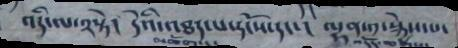འདི་ལ་༢སྟེ།  དེའི་འཐད་པ་དངོས་དང་།   ལྷན་༡་སྐྱེས་པ་
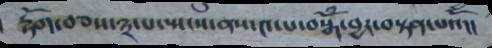རྟོག་བཅས་༣་པ་སྤངས་ནས་༤་པ་བསྒོཾ་བྱར་བསྟན་པའོ།།
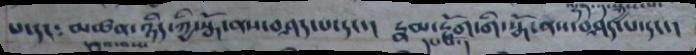པ་དང༴   མཚན་ཉིད་ཀྱི་སྒོ་ནས་བཤད་པ་དང་།  རྣམ་རྟོག་གི་སྒོ་ནས་བཤད་པ་དང་།
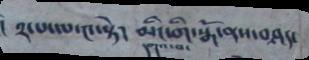།  ༢་པ་ལ་༤་སྟེ།   མིང་གི་སྒོ་ནས་བཤད་
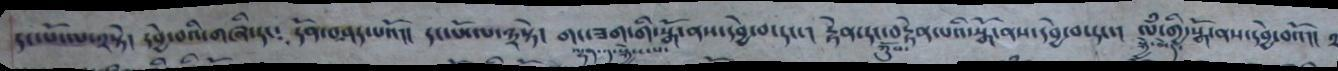དང་པོ་ལ་༢སྟེ། དབྱེ་བའི་གཞི་དང༴  དོན་བཤད་པའོ།།  དང་པོ་ལ་༣སྟེ།  གང་ཟག་གི་སྒོ་ནས་དབྱེ་བ་དང་།  རྟེན་དང་བརྟེན་པའི་སྒོ་ནས་དབྱེ་བ་དང་།  ལཾ་གྱི་སྒོ་ནས་དབྱེ་བའོ།།
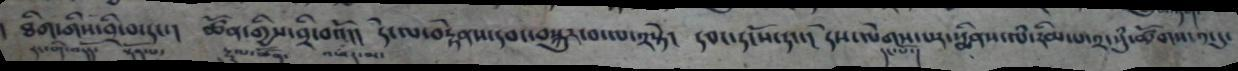ཐིག་གིས་བྲི་བ་དང་།  ཚོན་གྱིས་བྲི་བའོ།།   དེ་ལ་བརྟེནས་དབང་བསྐར་བ་ལ་༢སྟེ།   དབང་དངོས་དང་།   དེས་ལེགས་པར་སྨིནས་ལཾ་རིམ་པ་༢་སུཾ་ཚོགས་༡་དུ་
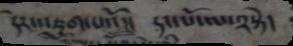དེར་འཇུག་པའོ།།   དང་པོ་ལ་༢སྟེ།
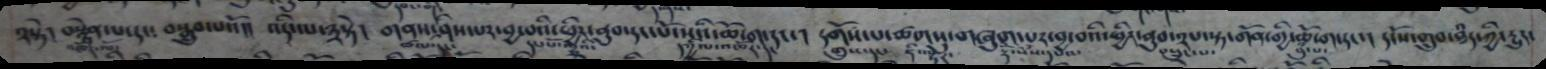༢སྟེ།   བསྟེན་པ་དང༴  བསྒྲུབ་པའོ།།།  འདི་པ་༣སྟེ།  གནས་ཤེས་པར་བྱ་བའི་ཕྱིར་ནུབ་དང་པོ་སའི་ཆོ་ག་དང་།   དགོས་པ་ཚགསུ་གཞུག་པར་བྱ་བའི་ཕྱིར་ནུབ་༢པ་སྟ་གོན་གྱི་ཆོ་ག་དང་།   དངོས་གྲུབ་ཐཾད་ཀྱི་དྱུད་
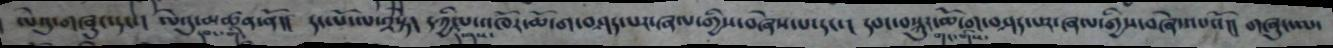ལེའུ་གཞུང་དང་།   ལེ་དུ་མཚན་ནོ།།   དང་པོ་ལ་༢སྟེ།   དཀྱིལ་འཁོར་ཆོ་ག་བཤད་པར་ཞལ་གྱིས་བཞེས་པ་དང་།   དབང་བསྐུར་ཆོ་ག་བཤད་པར་ཞལ་གྱིས་བཞེས་པའོ།།  གཞུང་ལ་
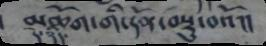མཆོག་གི་དོན་བསྡུ་བའོ།།
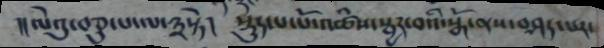།།ལེའུ་བཅུ་པ་ལ་༣སྟེ། སྡུད་པ་པོ་འཚཾས་སྦྱར་བའི་སྒོ་ནས་བཤད་པར་
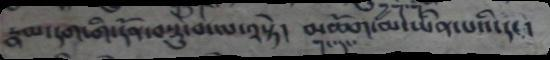རྣམ་དག་གི་དོན་བསྡུ་བ་ལ་༢སྟེ།  མཆོག་མ་ཡིན་པའི་དང།
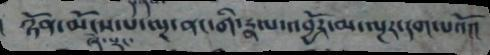ཉོན་མོངས་པ་ལྔ་ནང་གི་རྣལ་འབྱོར་མ་ལྔར་དག་པའོ།།
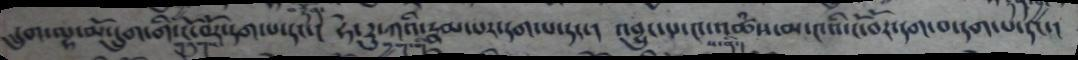དྲུག་ལྷ་མོ་དྲུག་གི་ངོ་བོར་དག་པ་དང་།  ཧེ་རུ་ཀའི་རྣམ་པར་དག་པ་དང་།  འབྱུང་པ་༤་འཚཾས་མ་༤འི་ངོ་བོར་དག་བ་དག་པ་དང་།
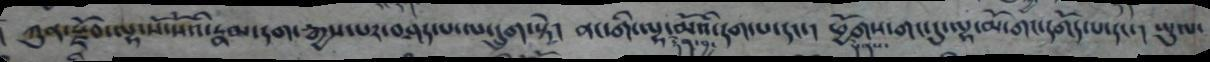ཀུན་རྫོབ་ལྷ་སོ་སོའི་རྣམ་དག་རྒྱས་པར་བཤད་པ་ལ་དྲུག་སྟེ།  ནང་གི་ལྷ་མོའི་དག་པ་དང་།   ཕྱོགས་གང་དུ་ལྷ་མོ་གང་དགོད་པ་དང་།  ཡུལ་
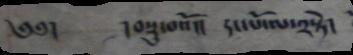༄༅། །བསྡུ་བསོ།། དང་པོ་ལ་༢སྟེ།
